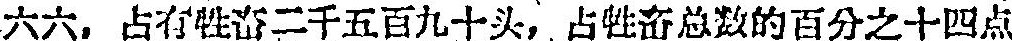六六，占有牲畜二千五百九十头，占牲畜总数的百分之十四点
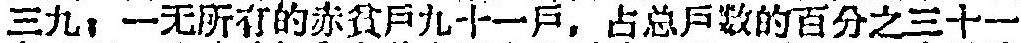三九；一无所有的赤貧戶九十一戶，占总戶数的百分之三十一
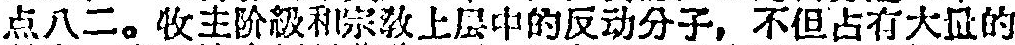点八二。牧主阶級和宗敎上层中的反动分子，不但古有大量的
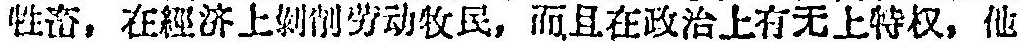牲畜，在經济上剝削劳动牧民，而且在政治上有无上特权，他
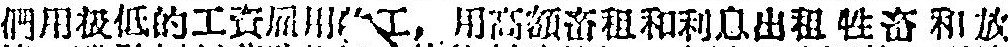們用极低的工資雇用的工，用高額畜租和利息出租牲畜和放
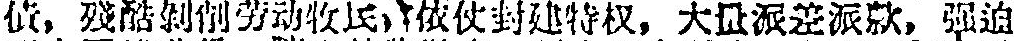債，殘酷剝削劳动牧民，依仗封建特权，大量派差派款，強迫
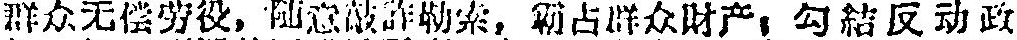群众无偿劳役，随意敲詐勒索，霸占群众財产；勾結反动政
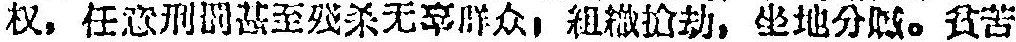权，任意刑罰甚至殘杀无辜群众；組織搶劫，坐地分贓。貧苦
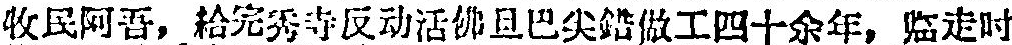牧民阿吾，給完秀寺反动活佛旦巴尖錯做工四十余年，临走时
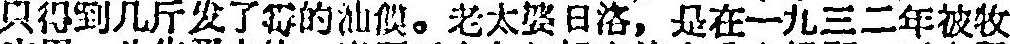只得到几斤发了霉的油馍。老太婆日洛，是在一九三二年被牧
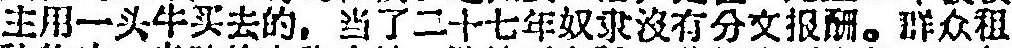主用一头牛头去的，当了二十七年奴隶沒有分交报酬。群众租
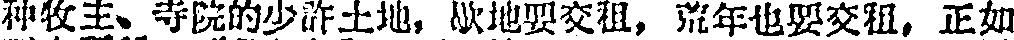种牧主、寺院的少許土地，歇地要交租，荒年也要交祖，正如
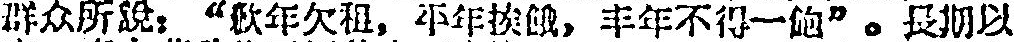群众所說：“歉年欠租，平年挨餓，丰年不得一飽”。長期以
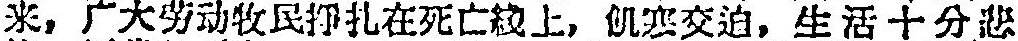来，广大劳动牧民掙扎在死亡綫上，飢寒交迫，生活十分悲
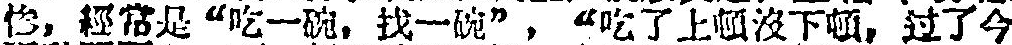惨，經常是“吃一碗，找一碗”，“吃了上頓沒下頓，过了今
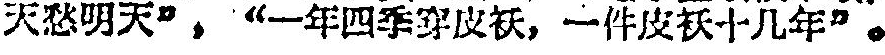天愁明天”，“一年四季穿皮袄，一件皮袄十几年”。
